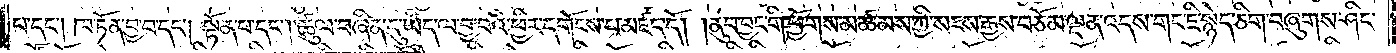པ་དང༌། ཁ་ཏོན་བྱ་བ་དང༌། སྟོན་པ་དང༌། ཚུལ་བཞིན་དུ་ཡིད་ལ་བྱ་བའི་ཕྱིར་དགོངས་པ་མཛད་དོ། །ནུབ་བྱང་གི་ཕྱོགས་མཚམས་ཀྱི་སངས་རྒྱས་བཅོམ་ལྡན་འདས་གང་ཇི་སྙེད་ཅིག་བཞུགས་ཤིང་
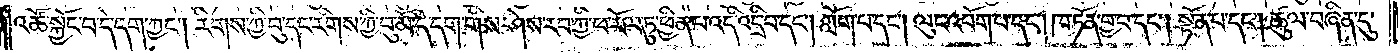འཚོ་སྐྱོང་པ་དེ་དག་ཀྱང༌། རིགས་ཀྱི་བུ་དང་རིགས་ཀྱི་བུ་མོ་དེ་དག་གིས་ཤེས་རབ་ཀྱི་ཕ་རོལ་ཏུ་ཕྱིན་པ་འདི་འདྲི་བ་དང༌། ཀློག་པ་དང༌། ལུང་འབོག་པ་དང༌། ཁ་ཏོན་བྱ་བ་དང༌། སྟོན་པ་དང༌། ཚུལ་བཞིན་དུ་
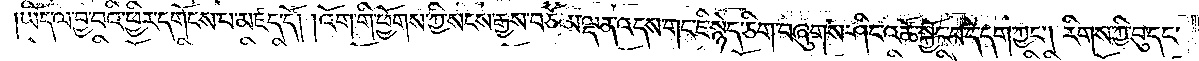ཡིད་ལ་བྱ་བའི་ཕྱིར་དགོངས་པ་མཛད་དོ། །འོག་གི་ཕྱོགས་ཀྱི་སངས་རྒྱས་བཅོམ་ལྡན་འདས་གང་ཇི་སྙེད་ཅིག་བཞུགས་ཤིང་འཚོ་སྐྱོང་བ་དེ་དག་ཀྱང༌། རིགས་ཀྱི་བུ་དང་
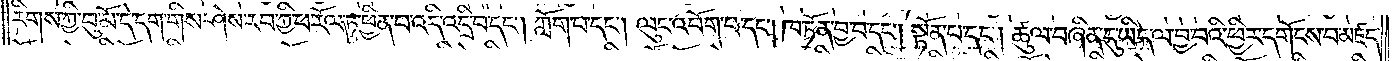རིགས་ཀྱི་བུ་མོ་དེ་དག་གིས་ཤེས་རབ་ཀྱི་ཕ་རོལ་ཏུ་ཕྱིན་པ་འདི་འདྲི་བ་དང༌། ཀློག་པ་དང༌། ལུང་འབོག་པ་དང༌། ཁ་ཏོན་བྱ་བ་དང༌། སྟོན་པ་དང༌། ཚུལ་བཞིན་དུ་ཡིད་ལ་བྱ་བའི་ཕྱིར་དགོངས་པ་མཛད་
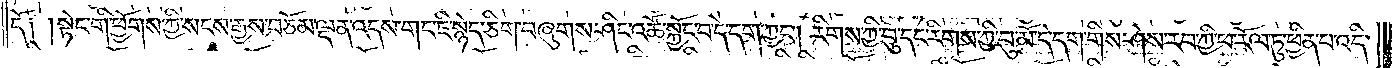དོ། །སྟེང་གི་ཕྱོགས་ཀྱི་སངས་རྒྱས་བཅོམ་ལྡན་འདས་གང་ཇི་སྙེད་ཅིག་བཞུགས་ཤིང་འཚོ་སྐྱོང་བ་དེ་དག་ཀྱང༌། རིགས་ཀྱི་བུ་དང་རིགས་ཀྱི་བུ་མོ་དེ་དག་གིས་ཤེས་རབ་ཀྱི་ཕ་རོལ་ཏུ་ཕྱིན་པ་འདི་
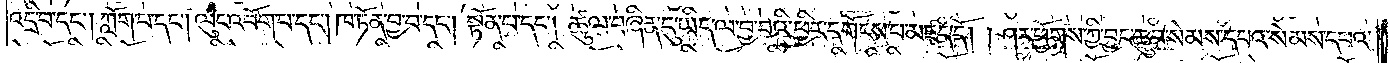འདྲི་བ་དང༌། ཀློག་པ་དང༌། ལུང་འབོག་པ་དང༌། ཁ་ཏོན་བྱ་བ་དང༌། སྟོན་པ་དང༌། ཚུལ་བཞིན་དུ་ཡིད་ལ་བྱ་བའི་ཕྱིར་དགོངས་པ་མཛད་དོ། །ཤར་ཕྱོགས་ཀྱི་བྱང་ཆུབ་སེམས་དཔའ་སེམས་དཔའ་
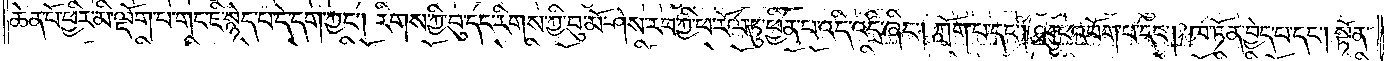ཆེན་པོ་ཕྱིར་མི་ལྡོག་པ་གང་ཇི་སྙེད་པ་དེ་དག་ཀྱང༌། རིགས་ཀྱི་བུ་དང་རིགས་ཀྱི་བུ་མོ་ཤེས་རབ་ཀྱི་ཕ་རོལ་ཏུ་ཕྱིན་པ་འདི་འདྲི་ཞིང༌། ཀློག་པ་དང༌། ལུང་འབོག་པ་དང༌། ཁ་ཏོན་བྱེད་པ་དང༌། སྟོན་
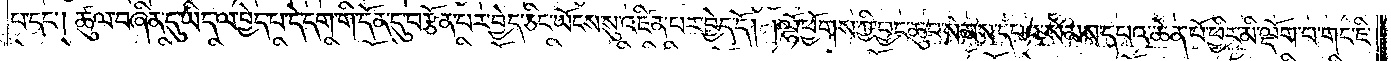པ་དང༌། ཚུལ་བཞིན་དུ་ཡིད་ལ་བྱེད་པ་དེ་དག་གི་དོན་དུ་བརྩོན་པར་བྱེད་ཅིང་ཡོངས་སུ་འཛིན་པར་བྱེད་དོ། །ལྷོ་ཕྱོགས་ཀྱི་བྱང་ཆུབ་སེམས་དཔའ་སེམས་དཔའ་ཆེན་པོ་ཕྱིར་མི་ལྡོག་པ་གང་ཇི་
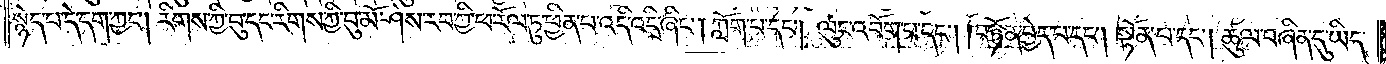སྙེད་པ་དེ་དག་ཀྱང༌། རིགས་ཀྱི་བུ་དང་རིགས་ཀྱི་བུ་མོ་ཤེས་རབ་ཀྱི་ཕ་རོལ་ཏུ་ཕྱིན་པ་འདི་འདྲི་ཞིང༌། ཀློག་པ་དང༌། ལུང་འབོག་པ་དང༌། ཁ་ཏོན་བྱེད་པ་དང༌། སྟོན་པ་དང༌། ཚུལ་བཞིན་དུ་ཡིད་
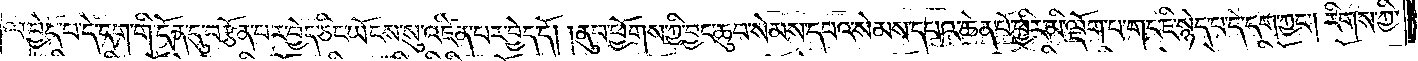ལ་བྱེད་པ་དེ་དག་གི་དོན་དུ་བརྩོན་པར་བྱེད་ཅིང་ཡོངས་སུ་འཛིན་པར་བྱེད་དོ། །ནུབ་ཕྱོགས་ཀྱི་བྱང་ཆུབ་སེམས་དཔའ་སེམས་དཔའ་ཆེན་པོ་ཕྱིར་མི་ལྡོག་པ་གང་ཇི་སྙེད་པ་དེ་དག་ཀྱང༌། རིགས་ཀྱི་
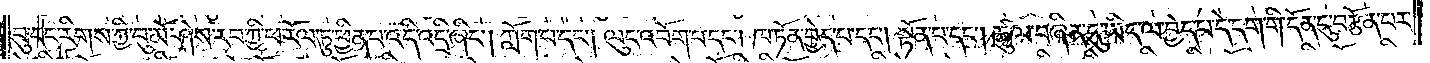བུ་དང་རིགས་ཀྱི་བུ་མོ་ཤེས་རབ་ཀྱི་ཕ་རོལ་ཏུ་ཕྱིན་པ་འདི་འདྲི་ཞིང༌། ཀློག་པ་དང༌། ལུང་འབོག་པ་དང༌། ཁ་ཏོན་བྱེད་པ་དང༌། སྟོན་པ་དང༌། ཚུལ་བཞིན་དུ་ཡིད་ལ་བྱེད་པ་དེ་དག་གི་དོན་དུ་བརྩོན་པར་
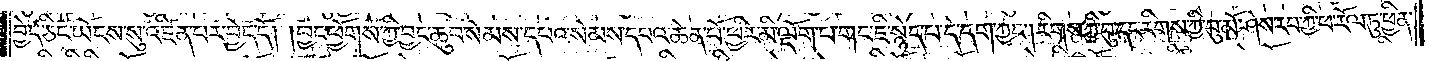བྱེད་ཅིང་ཡོངས་སུ་འཛིན་པར་བྱེད་དོ། །བྱང་ཕྱོགས་ཀྱི་བྱང་ཆུབ་སེམས་དཔའ་སེམས་དཔའ་ཆེན་པོ་ཕྱིར་མི་ལྡོག་པ་གང་ཇི་སྙེད་པ་དེ་དག་ཀྱང༌། རིགས་ཀྱི་བུ་དང་རིགས་ཀྱི་བུ་མོ་ཤེས་རབ་ཀྱི་ཕ་རོལ་ཏུ་ཕྱིན་
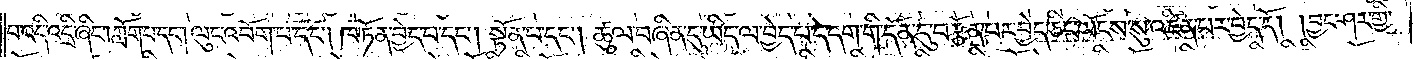པ་འདི་འདྲི་ཞིང༌། ཀློག་པ་དང༌། ལུང་འབོག་པ་དང༌། ཁ་ཏོན་བྱེད་པ་དང༌། སྟོན་པ་དང༌། ཚུལ་བཞིན་དུ་ཡིད་ལ་བྱེད་པ་དེ་དག་གི་དོན་དུ་བརྩོན་པར་བྱེད་ཅིང་ཡོངས་སུ་འཛིན་པར་བྱེད་དོ། །བྱང་ཤར་གྱི་
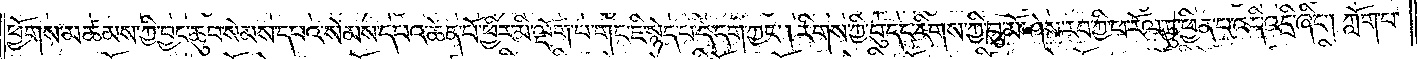ཕྱོགས་མཚམས་ཀྱི་བྱང་ཆུབ་སེམས་དཔའ་སེམས་དཔའ་ཆེན་པོ་ཕྱིར་མི་ལྡོག་པ་གང་ཇི་སྙེད་པ་དེ་དག་ཀྱང༌། རིགས་ཀྱི་བུ་དང་རིགས་ཀྱི་བུ་མོ་ཤེས་རབ་ཀྱི་ཕ་རོལ་ཏུ་ཕྱིན་པ་འདི་འདྲི་ཞིང༌། ཀློག་པ་
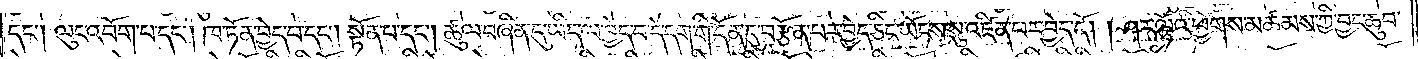དང༌། ལུང་འབོག་པ་དང༌། ཁ་ཏོན་བྱེད་པ་དང༌། སྟོན་པ་དང༌། ཚུལ་བཞིན་དུ་ཡིད་ལ་བྱེད་པ་དེ་དག་གི་དོན་དུ་བརྩོན་པར་བྱེད་ཅིང་ཡོངས་སུ་འཛིན་པར་བྱེད་དོ། །ཤར་ལྷོའི་ཕྱོགས་མཚམས་ཀྱི་བྱང་ཆུབ་
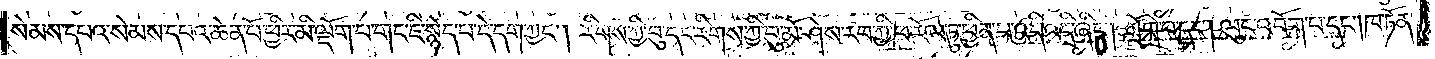སེམས་དཔའ་སེམས་དཔའ་ཆེན་པོ་ཕྱིར་མི་ལྡོག་པ་གང་ཇི་སྙེད་པ་དེ་དག་ཀྱང༌། རིགས་ཀྱི་བུ་དང་རིགས་ཀྱི་བུ་མོ་ཤེས་རབ་ཀྱི་ཕ་རོལ་ཏུ་ཕྱིན་པ་འདི་འདྲི་ཞིང༌། ཀློག་པ་དང༌། ལུང་འབོག་པ་དང༌། ཁ་ཏོན་
